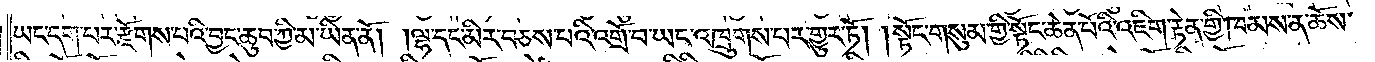ཡང་དག་པར་རྫོགས་པའི་བྱང་ཆུབ་ཀྱི་མ་ཡིན་ནོ། །ལྷ་དང་མིར་བཅས་པའི་འགྲོ་བ་ཡང་འཁྲུགས་པར་གྱུར་ཏོ། །སྟོང་གསུམ་གྱི་སྟོང་ཆེན་པོའི་འཇིག་རྟེན་གྱི་ཁམས་ན་ཆོས་
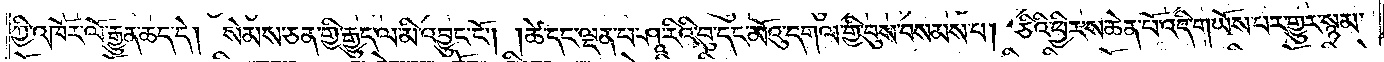ཀྱི་འཁོར་ལོ་རྒྱུན་ཆད་དེ། སེམས་ཅན་གྱི་རྒྱུད་ལ་མི་འབྱུང་ངོ༌། །ཚེ་དང་ལྡན་པ་ཤཱ་རིའི་བུ་དང་མོའུ་དགལ་གྱི་བུས་བསམས་པ། ཅིའི་ཕྱིར་ས་ཆེན་པོ་འདི་གཡོས་པར་གྱུར་སྙམ་
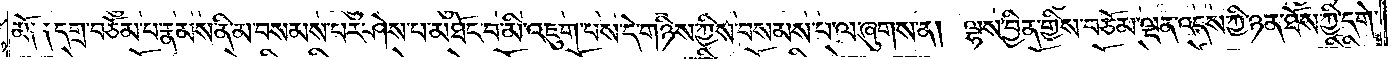མོ༑ ༑དགྲ་བཅོམ་པ་རྣམས་ནི་མ་བསམས་པར་ཤེས་པ་མཐོང་བ་མི་འཇུག་པས་དེ་གཉིས་ཀྱིས་བསམས་པ་ལ་ཞུགས་ན། ལྷས་བྱིན་གྱིས་བཅོམ་ལྡན་འདས་ཀྱི་ཉན་ཐོས་ཀྱི་དགེ་
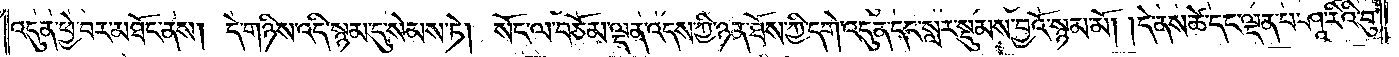འདུན་ཕྱེ་བར་མཐོང་ནས། དེ་གཉིས་འདི་སྙམ་དུ་སེམས་ཏེ། སོང་ལ་བཅོམ་ལྡན་འདས་ཀྱི་ཉན་ཐོས་ཀྱི་དགེ་འདུན་དང་སླར་སྡུམས་བྱའོ་སྙམ་མོ། །དེ་ནས་ཚེ་དང་ལྡན་པ་ཤཱ་རིའི་བུ་
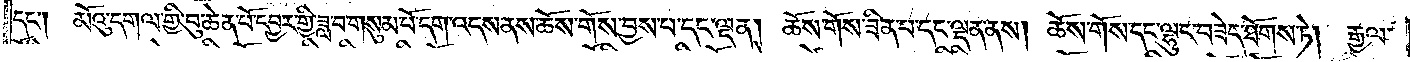དང༌། མོའུ་དགལ་གྱི་བུ་ཆེན་པོ་དབྱར་གྱི་ཟླ་བ་གསུམ་པོ་དག་འདས་ནས་ཆོས་གོས་བྱས་པ་དང་ལྡན།<gap>ཆོས་གོས་ཟིན་པ་དང་ལྡན་ནས། ཆོས་གོས་དང་ལྷུང་བཟེད་ཐོགས་ཏེ།  རྒྱལ་
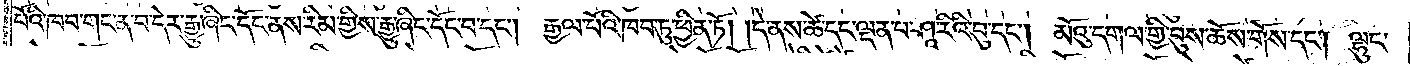པོའི་ཁབ་གང་ན་བ་དེར་རྒྱུ་ཞིང་དོང་ནས་རིམ་གྱིས་རྒྱུ་ཞིང་དོང་བ་དང༌། རྒྱལ་པོའི་ཁབ་ཏུ་ཕྱིན་ཏོ། །དེ་ནས་ཚེ་དང་ལྡན་པ་ཤཱ་རིའི་བུ་དང༌། མོའུ་དགལ་གྱི་བུས་ཆོས་གོས་དང༌། ལྷུང་
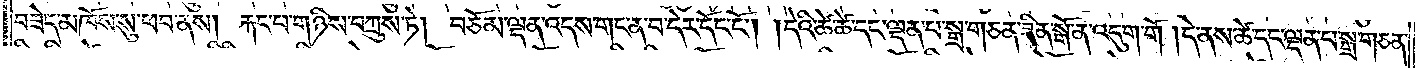བཟེད་མཁོས་སུ་ཕབ་ནས། རྐང་པ་གཉིས་བཀྲུས་ཏེ། བཅོམ་ལྡན་འདས་གང་ན་བ་དེར་དོང་ངོ༌། །དེའི་ཚེ་ཚེ་དང་ལྡན་པ་སྒྲ་གཅན་ཟིན་སྒོ་ན་འདུག་གོ། དེ་ནས་ཚེ་དང་ལྡན་པ་སྒྲ་གཅན་
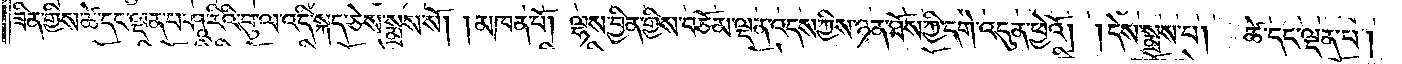ཟིན་གྱིས་ཚེ་དང་ལྡན་པ་ཤཱ་རིའི་བུ་ལ་འདི་སྐད་ཅེས་སྨྲས་སོ། །མཁན་པོ། ལྷས་བྱིན་གྱིས་བཅོམ་ལྡན་འདས་ཀྱིས་ཉན་ཐོས་ཀྱི་དགེ་འདུན་ཕྱེའོ། །དེས་སྨྲས་པ། ཚེ་དང་ལྡན་པ།
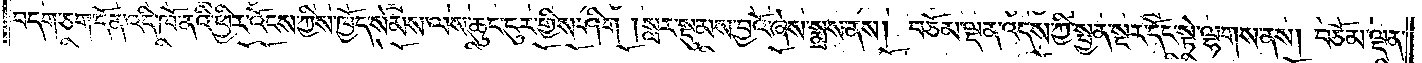བདག་ཅག་དོན་འདི་ཁོ་ནའི་ཕྱིར་འོངས་ཀྱིས་ཁྱོད་སེམས་ལས་ཆུང་ངུར་གྱིས་ཤིག །སླར་སྡུམས་བྱའོ་ཞེས་སྨྲས་ནས། བཅོམ་ལྡན་འདས་ཀྱི་སྤྱན་སྔར་དོང་སྟེ་ལྷགས་ནས། བཅོམ་ལྡན་
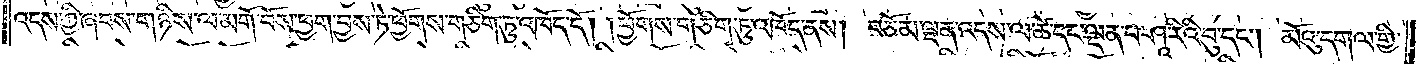འདས་ཀྱི་ཞབས་གཉིས་ལ་མགོ་བོས་ཕྱག་བྱས་ཏེ་ཕྱོགས་གཅིག་ཏུ་འཁོད་དོ། །ཕྱོགས་གཅིག་ཏུ་འཁོད་ནས། བཅོམ་ལྡན་འདས་ལ་ཚེ་དང་ལྡན་པ་ཤཱ་རིའི་བུ་དང༌། མོའུ་དགལ་གྱི་
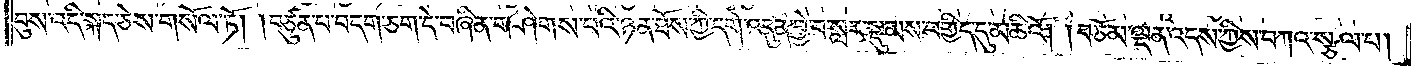བུས་འདི་སྐད་ཅེས་གསོལ་ཏོ། །བཙུན་པ་བདག་ཅག་དེ་བཞིན་གཤེགས་པའི་ཉན་ཐོས་ཀྱི་དགེ་འདུན་བྱེ་བ་སླར་སྡུམས་བགྱིད་དུ་མཆིའོ། །བཅོམ་ལྡན་འདས་ཀྱིས་བཀའ་སྩལ་པ།
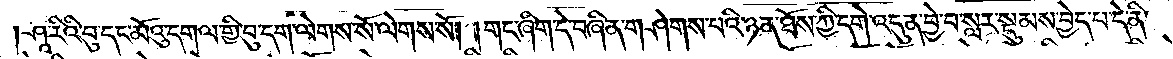།ཤཱ་རིའི་བུ་དང་མོའུ་དགལ་གྱི་བུ་དག་ལེགས་སོ་ཞེས་སོ། །གང་ཞིག་དེ་བཞིན་གཤེགས་པའི་ཉན་ཐོས་ཀྱི་དགེ་འདུན་བྱེ་བ་སླར་སྡུམས་བྱེད་པ་དེ་ནི་
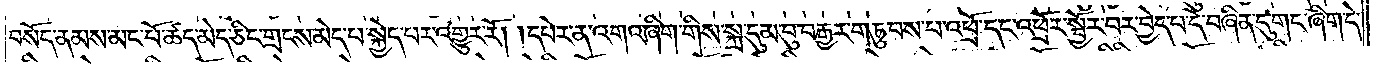བསོད་ནམས་མང་པོ་ཚད་མེད་ཅིང་གྲངས་མེད་པ་སྐྱེད་པར་འགྱུར་རོ། །དཔེར་ན་འགའ་ཞིག་གིས་སྐྲ་དུམ་བུ་བརྒྱར་གཏུབས་པ་འཕྲོ་དང་འཕྲོར་སྦྱོར་བར་བྱེད་པ་དེ་བཞིན་དུ་གང་ཞིག་དེ་
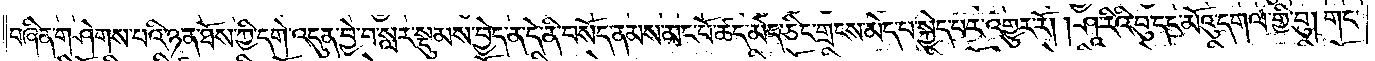བཞིན་གཤེགས་པའི་ཉན་ཐོས་ཀྱི་དགེ་འདུན་བྱེ་བ་སླར་སྡུམས་བྱེད་ན་དེ་ནི་བསོད་ནམས་མང་པོ་ཚད་མེད་ཅིང་གྲངས་མེད་པ་སྐྱེད་པར་འགྱུར་རོ། །ཤཱ་རིའི་བུ་དང་མོའུ་དགལ་གྱི་བུ། གང་
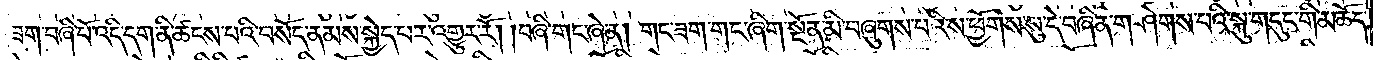ཟག་བཞི་པོ་འདི་དག་ནི་ཚངས་པའི་བསོད་ནམས་སྐྱེད་པར་འགྱུར་རོ། །བཞི་གང་ཞེ་ན། གང་ཟག་གང་ཞིག་སྔོན་མི་བཞུགས་པའི་ས་ཕྱོགས་སུ་དེ་བཞིན་གཤེགས་པའི་སྐུ་གདུང་གི་མཆོད་
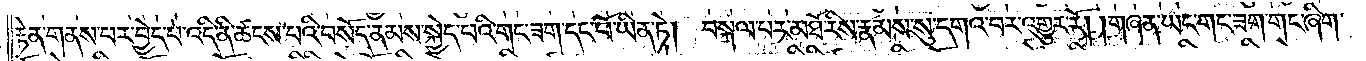རྟེན་གནས་པར་བྱེད་པ་འདི་ནི་ཚངས་པའི་བསོད་ནམས་སྐྱེད་པའི་གང་ཟག་དང་པོ་ཡིན་ཏེ། བསྐལ་པར་མཐོ་རིས་རྣམས་སུ་དགའ་བར་འགྱུར་རོ། །གཞན་ཡང་གང་ཟག་གང་ཞིག་
